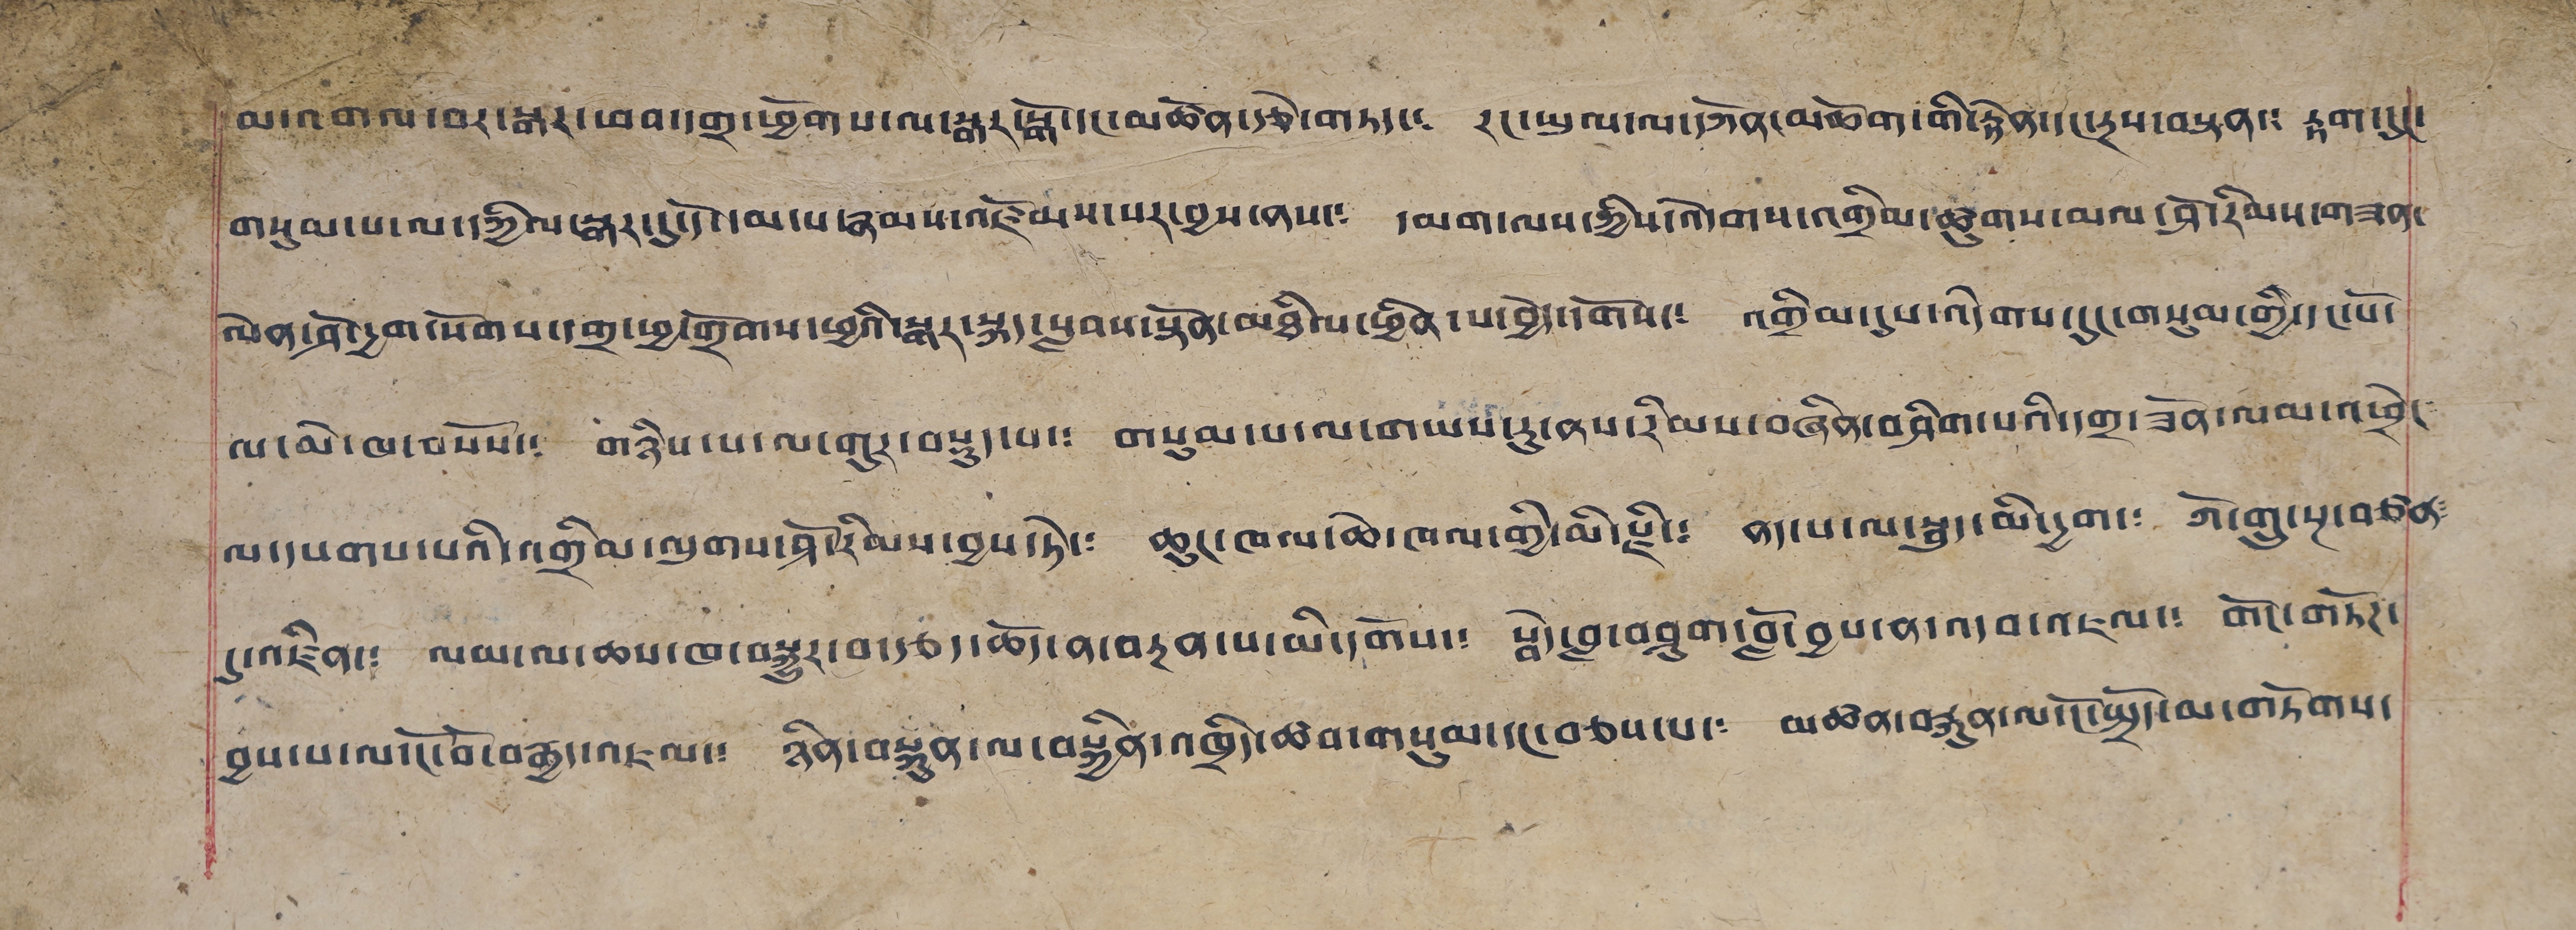མ་འགལ་བར་སྒར་ཕབ་དགྲ་ཕྱོགས་ལ་སྒར་སྒོ་ང་མཚོན་རྩེ་གཏད་༴ རང་ཡུལ་ལ་དཀོན་མཆོག་གི་རྟེན་དང་རྔས་བསྟན་༴ རྟག་དུད་
གསུམ་པ་ལ་དཀྱིལ་སྒར་དུ་དོ་དམ་པ་རྣམས་འཛོམས་པར་བྱས་ནས་༴ དམག་ལས་ཀྱིས་འདེགས་འགྲིམ་ཚུགས་མལ་ཤོ་རིམས་གཟན་
ལེན་ཤོ་དྱག་སོགས་དགྲ་ཕྱ་གྲོགས་ཕྱའི་སྒར་སྐད་སླབས་སྟོན་མཐིལ་ཕྱིན་པ་བྱེད་དགོས་༴ འགྲིམ་དུས་འདེགས་དུང་གསུམ་གྱི་དང་པོ་
ལ་མེ་ཁ་བསོས་༴ གཉིས་པ་ལ་གུར་བསྡུད་པ་༴ གསུམ་པ་ལ་གཡས་རུ་ནས་རིམས་བཞིན་བཤིག་པའི་དགྲ་ཟོན་ལམ་འཕྲེང༴
ལ་དཔགས་པའི་འགྲིམ་ལུགས་ཤོ་རིམས་བྱས་ཏེ་༴ ཆུང་ཁལ་ཆེ་ཁལ་གྱི་མི་ལྗི་༴ ནད་པ་ལ་སྦུད་མི་དྱག་༴ ཀོ་གྲུ་སྔ་བཙན༴
དུ་འཛིན་༴ ལམ་ལ་ཆས་ཁ་བསྐྱུར་བ་རྩད་ཆོད་ན་བརྔན་པ་མི་དགོས་༴ སྦེད་བླ་བཤུག་བློ་བྱས་ན་འདབ་འཇལ་༴ གོང་གཏོཊ་
བྱས་པ་ལ་ངོ་བོ་བརྒྱད་འཇལ་༴ ཉིན་བསྐུན་ལ་བསྐྱིན་འཁྲིད་ཆབ་གསུམ་དང་བཅས་པ་༴ མཚན་བརྐུན་ལ་ངོ་སྤྲོད་མ་གཏོགས་
